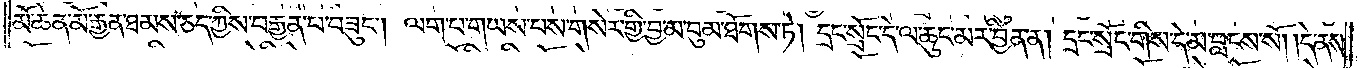མོ་ཆེན་པོ་རྒྱན་ཐམས་ཅད་ཀྱིས་བརྒྱན་པ་བཟུང༌། ལག་པ་གཡས་པས་གསེར་གྱི་བྱ་མ་བུམ་ཐོགས་ཏེ། དྲང་སྲོང་དེ་ལ་ཆུང་མར་བྱིན་ན། དྲང་སྲོང་གིས་དེ་མ་བླངས་སོ། །དེ་ནས་
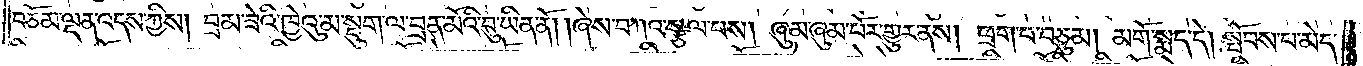བཅོམ་ལྡན་འདས་ཀྱིས། བྲམ་ཟེའི་ཁྱེའུ་མ་སྡུག་ལ་བྲན་མོའི་བུ་ཡིན་ནོ། །ཞེས་བཀའ་སྩལ་པས། ཞུམ་ཞུམ་པོར་གྱུར་ན། ཕྲག་པ་བཅུམ། མགོ་སྨད་དེ། སྤོབས་པ་མེད་
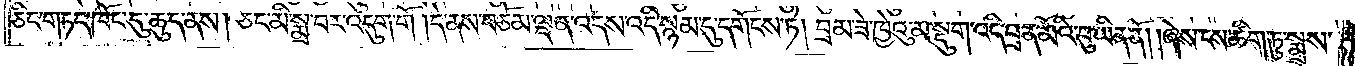ཅིང་གཏད་ཁོང་དུ་ཆུད་ནས། ཅང་མི་སྨྲ་བར་འདུག་གོ །དེ་ནས་བཅོམ་ལྡན་འདས་འདི་སྙམ་དུ་དགོངས་ཏེ། བྲམ་ཟེ་ཁྱེའུ་མ་སྡུག་འདི་བྲན་མོའི་བུ་ཡིན་ནོ། །ཞེས་ངས་ཚིག་ཏུ་སྨྲས་
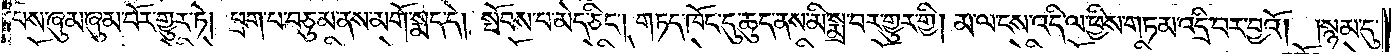པས་ཞུམ་ཞུམ་པོར་གྱུར་ཏེ། ཕྲག་པ་བཅུམ་ནས་མགོ་སྨད་དེ། སྤོབས་པ་མེད་ཅིང༌། གཏད་ཁོང་དུ་ཆུད་ནས་མི་སྨྲ་བར་གྱུར་གྱི། མ་ལ་ངས་འདི་ལ་ཕྱིས་གཏམ་འདྲི་བར་བྱའོ། །སྙམ་དུ་
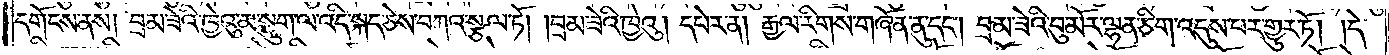དགོངས་ནས། བྲམ་ཟེའི་ཁྱེའུ་མ་སྡུག་ལ་འདི་སྐད་ཅེས་བཀའ་སྩལ་ཏོ། །བྲམ་ཟེའི་ཁྱེའུ། དཔེར་ན། རྒྱལ་རིགས་གཞོན་ནུ་དང༌། བྲམ་ཟེའི་བུ་མོར་ལྷན་ཅིག་འདུས་པར་གྱུར་ཏོ། །དེ་
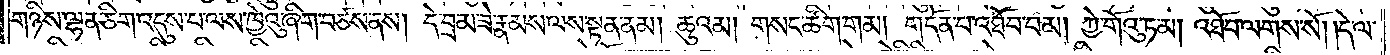གཉིས་ལྷན་ཅིག་འདུས་པ་ལས་ཁྱེའུ་ཞིག་བཙས་ནས། དེ་བྲམ་ཟེ་རྣམས་ལས་སྟན་ནམ། ཆུའམ། གསང་ཚིག་གམ། གདོན་པ་འཐོབ་བམ། ཀྱེ་གོའུ་ཏ་མ། འཐོབ་ལགས་སོ། །དེ་ལ་
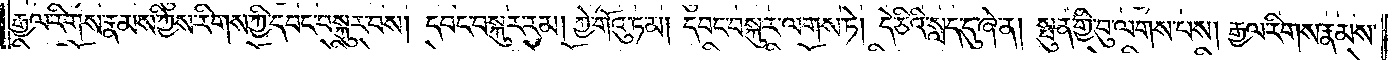རྒྱལ་རིགས་རྣམས་ཀྱིས་རིགས་ཀྱི་དབང་བསྐུར་བས། དབང་བསྐུར་རམ། ཀྱེ་གོའུ་ཏ་མ། དབང་བསྐུར་ལགས་ཏེ། དེ་ཅིའི་སླད་དུ་ཞེ་ན། སྤུན་གྱི་བུ་ལགས་པས། རྒྱལ་རིགས་རྣམས་
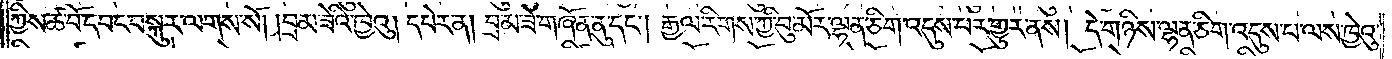ཀྱིས་ཚ་བོ་དབང་བསྐུར་ལགས་སོ། །བྲམ་ཟེའི་ཁྱེའུ། དཔེར་ན། བྲམ་ཟེ་གཞོན་ནུ་དང༌། རྒྱལ་རིགས་ཀྱི་བུ་མོར་ལྷན་ཅིག་འདུས་པར་གྱུར་ནས། དེ་གཉིས་ལྷན་ཅིག་འདུས་པ་ལས་ཁྱེའུ་
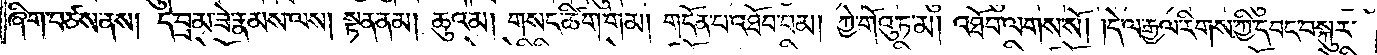ཞིག་བཙས་ནས། དེ་བྲམ་ཟེ་རྣམས་ལས། སྟན་ནམ། ཆུའམ། གསང་ཚིག་གམ། གདོན་པ་འཐོབ་བམ། ཀྱེ་གོའུ་ཏ་མ། འཐོབ་ལགས་སོ། །དེ་ལ་རྒྱལ་རིགས་ཀྱི་དབང་བསྐུར་
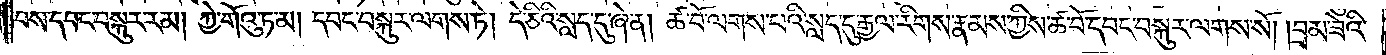བས་དབང་བསྐུར་རམ། ཀྱེ་གོའུ་ཏ་མ། དབང་བསྐུར་ལགས་ཏེ། དེ་ཅིའི་སླད་དུ་ཞེ་ན། ཚ་བོ་ལགས་པའི་སླད་དུ་རྒྱལ་རིགས་རྣམས་ཀྱིས་ཚ་བོ་དབང་བསྐུར་ལགས་སོ། །བྲམ་ཟེའི་
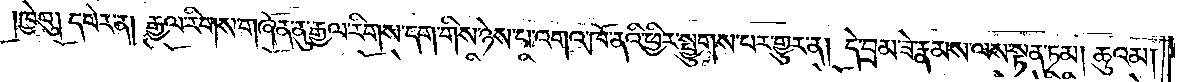ཁྱེའུ། དཔེར་ན། རྒྱལ་རིགས་གཞོན་ནུ་རྒྱལ་རིགས་དག་གིས་ཉེས་པ་འགའ་ཁོ་ནའི་ཕྱིར་སྤྱུགས་པར་གྱུར་ན། དེ་བྲམ་ཟེ་རྣམས་ལས་སྟན་ཏམ། ཆུའམ།
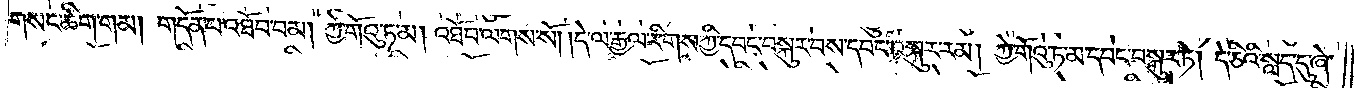གསང་ཚིག་གམ། གདོན་པ་འཐོབ་བམ། ཀྱེ་གོའུ་ཏ་མ། འཐོབ་ལགས་སོ། །དེ་ལ་རྒྱལ་རིགས་ཀྱི་དབང་བསྐུར་བས་དབང་བསྐུར་རམ། ཀྱེ་གོའུ་ཏ་མ་དབང་བསྐུར་ཏེ། དེ་ཅིའི་སླད་དུ་ཞེ་
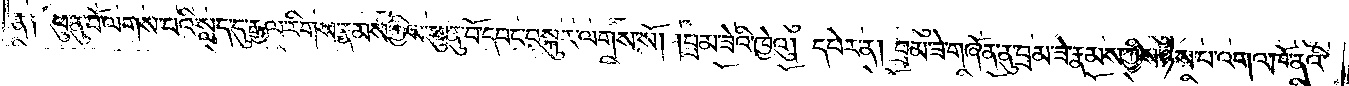ན༑ ཕུ་ནུ་བོ་ལགས་པའི་སླད་དུ་རྒྱལ་རིགས་རྣམས་ཀྱིས་ཕུ་ནུ་བོ་དབང་བསྐུར་ལགས་སོ། །བྲམ་ཟེའི་ཁྱེའུ། དཔེར་ན། བྲམ་ཟེ་གཞོན་ནུ་བྲམ་ཟེ་རྣམས་ཀྱིས་ཉེས་པ་འགའ་ཁོ་ནའི་
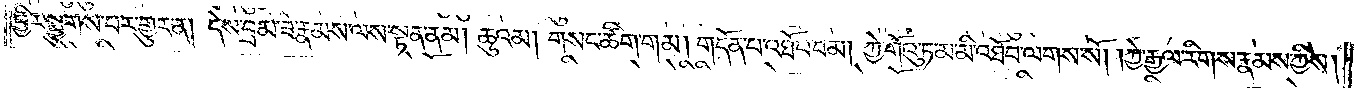ཕྱིར་སྤྱུགས་པར་གྱུར་ན། དེས་བྲམ་ཟེ་རྣམས་ལས་སྟན་ནམ། ཆུའམ། གསང་ཚིག་གམ། གདོན་པ་འཐོབ་བམ། ཀྱེ་གོའུ་ཏ་མ་མི་འཐོབ་ལགས་སོ། །ཀྱེ་རྒྱལ་རིགས་རྣམས་ཀྱིས།
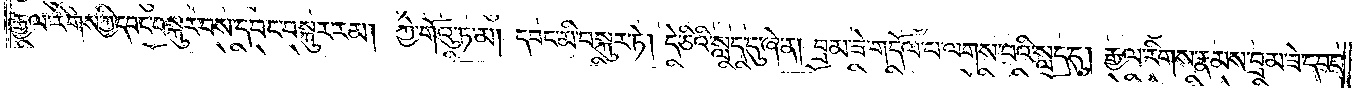རྒྱལ་རིགས་ཀྱི་དབང་བསྐུར་བས་དབང་བསྐུར་རམ། ཀྱེ་གོའུ་ཏ་མ། དབང་མི་བསྐུར་ཏེ། དེ་ཅིའི་སླད་དུ་ཞེ་ན། བྲམ་ཟེ་གདོལ་པ་ལགས་པའི་སླད་དུ། རྒྱལ་རིགས་རྣམས་བྲམ་ཟེ་དབང་
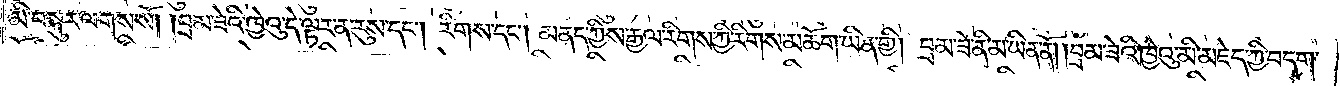མི་བསྐུར་ལགས་སོ། །བྲམ་ཟེའི་ཁྱེའུ་དེ་ལྟར་ན་རུས་དང༌། རིགས་དང༌། མནད་ཀྱིས་རྒྱལ་རིགས་ཀྱི་རིགས་མཆོག་ཡིན་གྱི། བྲམ་ཟེ་ནི་མ་ཡིན་ནོ། །བྲམ་ཟེའི་ཁྱེའུ་མི་མཇེད་ཀྱི་བདག་
